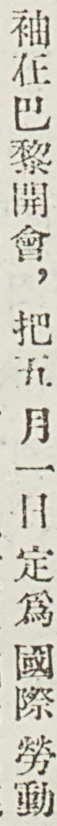袖在巴黎開會，把五月一日定爲國際勞動
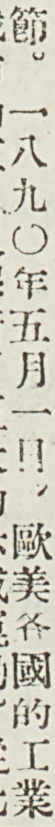節。一八九〇年五月一日，歐美各國的工業
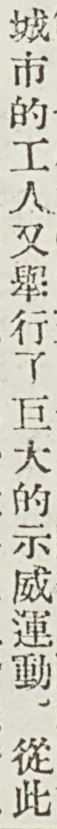城市的工人又舉行了巨大的示威運動。從此
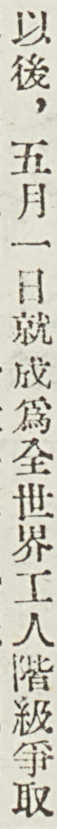以後，五月一日就成爲全世界工人階級爭取
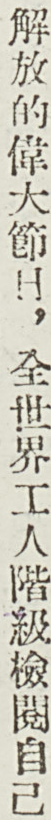解放的偉大節日，全世界工人階級檢閱自己
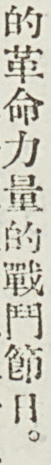的革命力量的戰鬥節日。
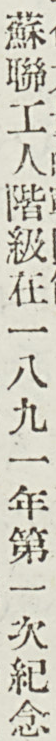蘇聯工人階級在一八九一年第一次紀念
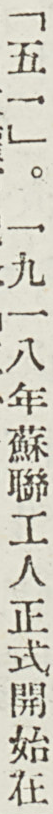「五一」。一九一八年蘇聯工人正式開始在
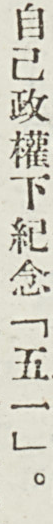自己政權下紀念「五一」。
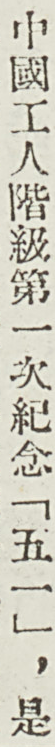中國工人階級第一次紀念「五一」，是
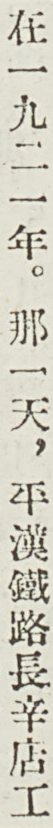在一九二一年。哪一天，平漢鐵路長辛店工
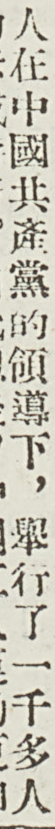人在中國共產黨的領導下，舉行了一千多人
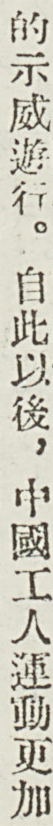的示威遊行。自此以後，中國工人運動更加
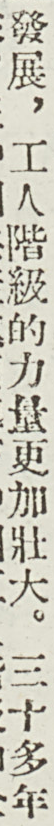發展，工人階級的力量更加壯大。三十多年
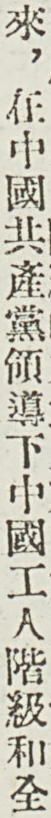來，在中國共產黨領導下中國工人階級和全
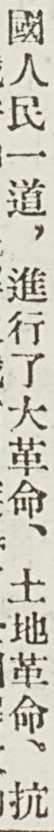國人民一道，進行了大革命、土地革命、抗
